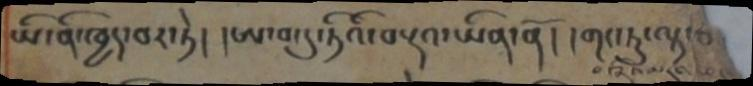ཡི་ནི་ཁྱད་བར་ཏེ། །ཨ་བ་དུ་ཏིའི་བརྡའ་ཡིན་ནོ། །གང་ཏུ་ལྟ་བ
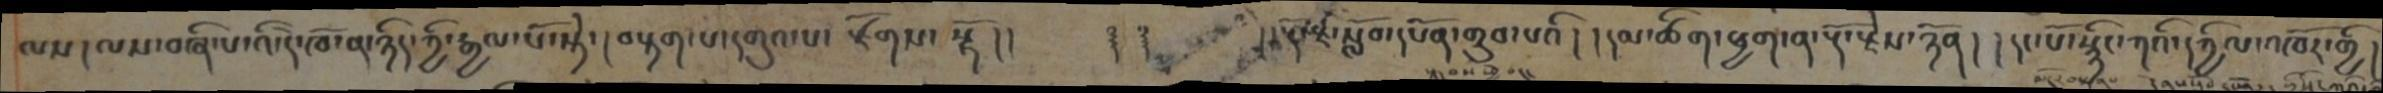ལས། ལས་བཞི་པ་འི་དེ་ཁོ་ན་ཉིད་ཀྱི་རྒྱལ་པོ་སྟེ་། བརྟག་པ་དགུའ་པ་རྫོགས་སྷོ །།     ༈ ༈   །།རྡོ་རྗེ་སློབ་དཔོན་གྲུབ་པའི། །དམ་ཚིག་ཕྱག་ན་རྡོ་རྗེས་ཉོན། །དང་པོ་སྙིང་ཀའི་དཀྱིལ་འཁོར་གྱི།
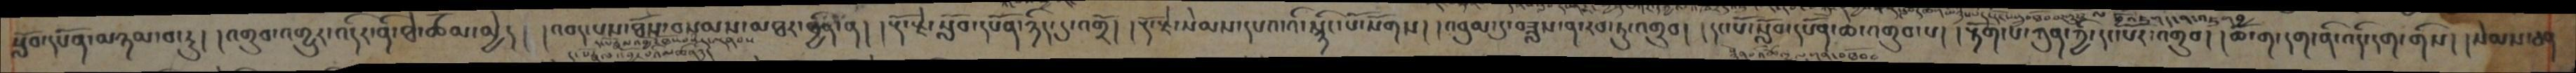སློབ་དཔོན་མཉམ་བ་རུ། །འགྲུབ་འགྱུར་འདིར་ནི་ཐེ་ཚོམ་མྱེད། །འབད་པས་ཐོས་བསམས་མཐར་ཕྱིན་ན། །རྡོ་རྗེ་སློབ་དཔོན་ཉིད་དུ་འགྲོ། །རྡོ་རྗེ་སེམས་དཔའ་འི་སྙིང་པོ་སོགས། །འབུམ་དུ་བཟླས་ན་རབ་ཏུ་འགྲུབ། །དང་པོ་སློབ་དཔོན་ཆེ་འགྲུབ་པ། །རྟོག་པ་ཀུན་གྱི་དང་པོར་འགྲུབ། །ཆོ་ག་དག་ནི་འདི་དག་གིས། །སེམས་ཅན
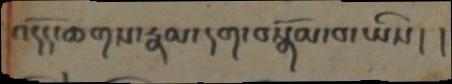འདོད་ཆགས་རྣམ་དག་བསྒོམ་བ་ཡིས། །
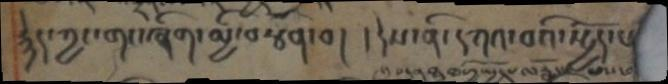རྙེད་ཀྱང་གང་ཞིག་མྱི་བརྩོན་བ། །དེས་ནི་དཀའ་བའི་སྤྱོད་པ
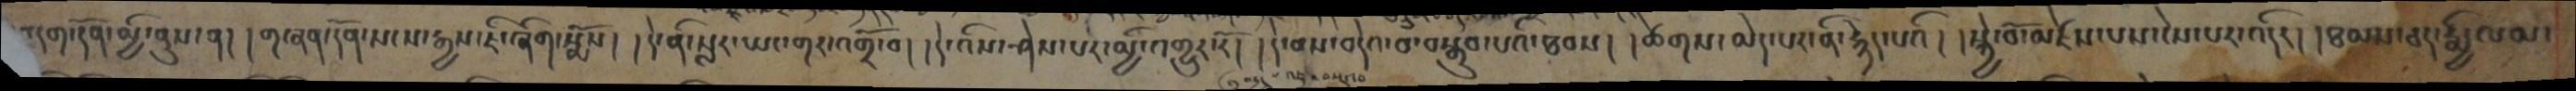བདག་དོན་མྱི་ནུས་ན། །གཞན་དོན་སངས་རྒྱས་ཇི་ཞིག་སྨོས། །དེ་ནི་སླར་ཡང་གར་འགྲོ་བ། །དེ་འིས་ཤེས་པར་མྱི་འགྱུར་རོ། །དེ་བས་བདེའ་བ་བསྒྲུབ་པའི་ཐབས། །ཚེགས་མེད་པར་ནི་རྙེད་པའི། །སྐྱེ་བོ་མཛེས་པས་ངེས་པར་འདིར། །ཐམས་ཅད་རྨྱི་ལམ་
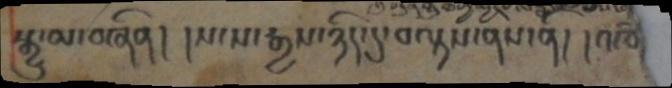སྒྱུ་མ་བཞིན། །སངས་རྒྱས་ཉིད་དུ་བལྟས་ནས་ནི། །འཁོ
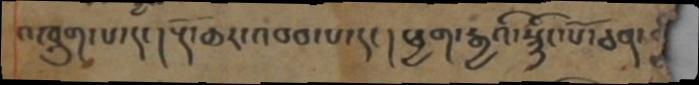འཁྲུག་པ་དང ། སྔོ་ཆར་འབབ་པ་དང ། ཕྱག་རྒྱའི་སྙིང་པོ་ཅན་
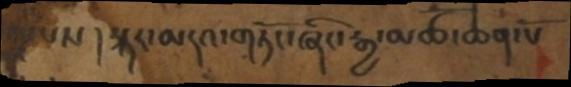པས། སྐར་མདའ་གཏོར་ཞིང་རྒྱ་མཚོ་ཆེན་པོ
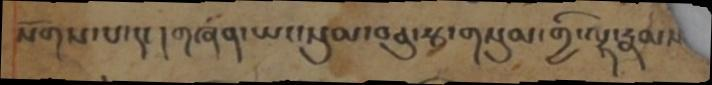སོགས་པ་དང །གཞན་ཡང་སུམ་བཅུ་རྩ་གསུམ་གྱི་ལྷ་རྣམས
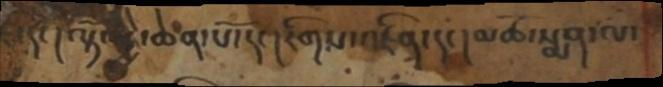ཛ་དང། ལྡོ་ཕྱེ་ཆེན་པོ་དང་། རིགས་འཛིན་དང། མཚོ་སྨན་ལ་
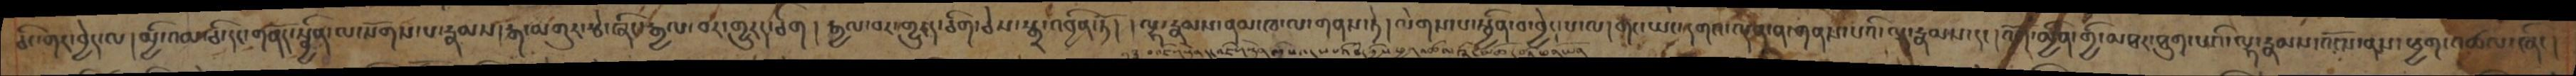ཅིང་གར་བྱེད་ལ། མྱི་འམ་ཅི་དང་གནོད་སྦྱིན་ལ་སོགས་པ་རྣམས།རྒ་མགུར་རྩེ་ཞིང་རྒྱལ་བར་གྱུར་ཅིག། རྒྱལ་བར་གྱུརད་ཅིག་ཅེས་སྒྲ་འབྱིན་ཏོ། །ལྷ་རྣམས་ནམ་ཁ་ལ་གནས་ཏེ། ལེགས་པ་སྦྱིན་བ་བྱེད་པ་ལ། གང་ཡང་དགའ་ལྡན་ན་གནས་པའི་ལྷ་རྣམས་དང། འོག་མྱིན་གྱི་མཐར་ཐུག་པའི་ལྷ་རྣམས་འོངས་ནས་ཕྱག་འཚལ་ཞིང།
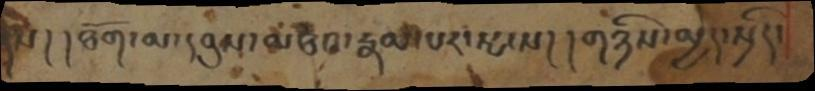ནས། །ཐོག་མ་དབུས་མཐའ་རྣམ་པར་སྤངས། །གཉིས་མྱེད་སྲིད་
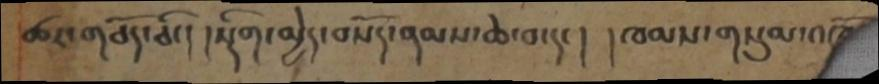ཚར་གཅོད་ཅིང། །སྡིག་མྱེད་བསོད་ནམས་ཆེ་བ་དང ། །ཁམས་གསུམ་འཁོ
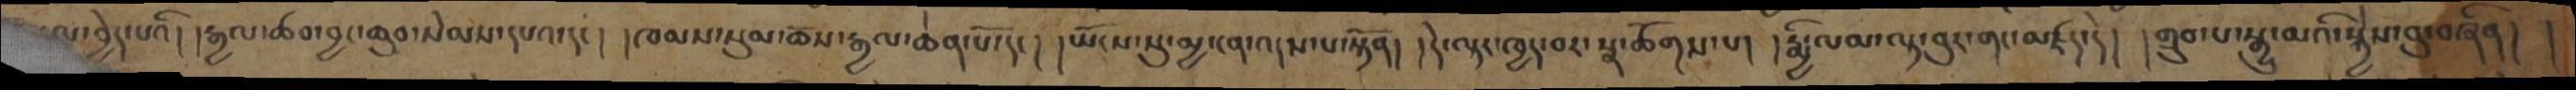ལ་བྱེད་པའི། །རྒྱལ་ཚབ་བྱང་ཆུབ་སེམས་དཔའ་དང། །ཁམས་སུམ་ཆོས་རྒྱལ་ཆེན་པོ་དང། །ཡོངས་སུ་མྱ་ངན་འདས་པ་སྟོན། །དེ་ལྟར་ཁྱད་བར་སྣ་ཚོགས་པ། །རྨྱི་ལམ་ལྟ་བུར་གང་མཛད་དེ ། །གྲུབ་པ་སྒྱུ་མའི་སྐྱེསབུ་བཞིན། །
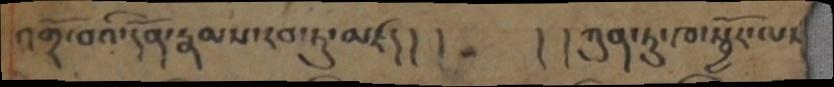འགྲོ་བའི་དོན་རྣམས་རབ་ཏུ་མཛད།།                །།ཀུན་ཏུ་ཁ་སྦྱོར་ལས
